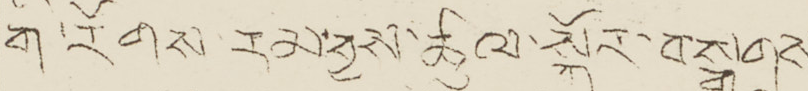གི་རོགས་རམ་བྱས་ཚུལ་སྐོར་བསྒྲགས
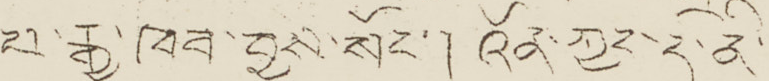པ་རྒྱ་ཁབ་བྱས་སོང་། འོན་ཀྱང་ད་ནི་
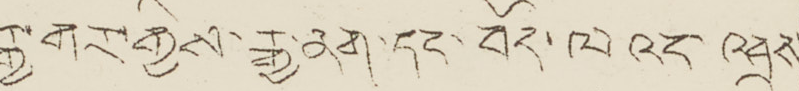རྒྱ་གར་གྱིས་རྒྱ་ནག་དང་བོད་ལའང་འབྲས
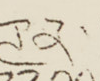ཊན་
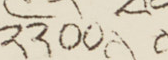༢༢༠༠
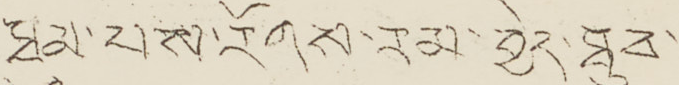ཐམ་པས་རོགས་རམ་བྱེད་ཐུབ་
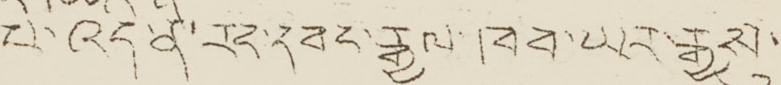པ་འདི་ནི་རང་དབང་རྒྱལ་ཁབ་ཡར་རྒྱསུ་
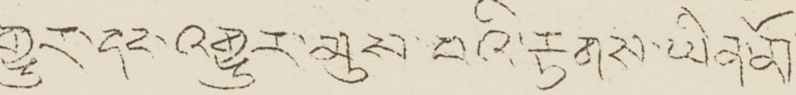གྱུར་དང་འགྱུར་མུས་བའི་རྟགས་ཡིན་ནོ།།
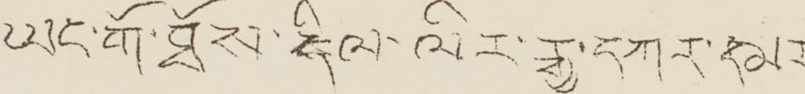ཡང་གོ་ཐོས་དིལ་ལིར་རྒྱ་དཀར་དམར་
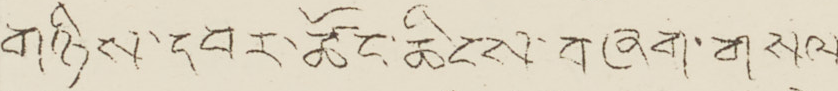གཉིས་དབང་ཚོང་ཆིངས་བཞག་གསལ་
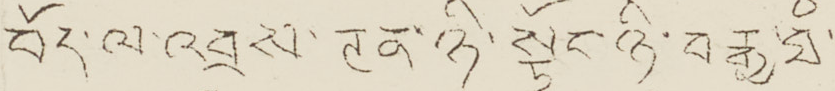བོད་ལ་འབྲས་ཊན་ཉི་སྟོང་ཉི་བརྒྱ་ཐཾ་
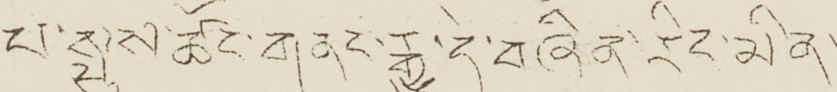པ་སྤུས་ཚོང་གནང་རྒྱ་དེ་བཞིན་རིང་མིན་
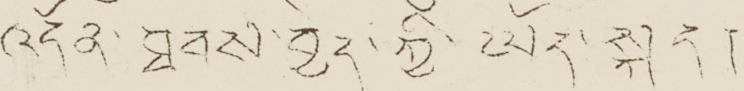འདོན་ཐབས་བྱེད་ཀྱི་ཡོད་སྐད།།
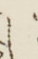སྤྱི་ཟླ་
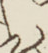༧
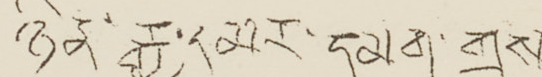ཉིན་རྒྱ་དམར་དམག་གྲུས
